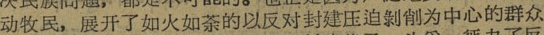动牧民，展开了如火如荼的以反对封建压迫剝削为中心的群众
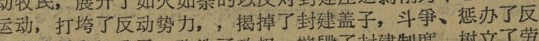运动，打垮了反动势力，，揭掉了封建盖子，斗爭、惩办了反
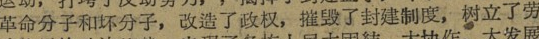革命分子和坏分子，改造了政权，摧毁了封建制度，树立了劳
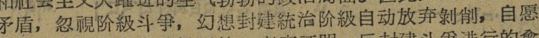矛盾，忽視阶級斗爭，幻想封建統治阶級自动放弃剝削，自愿
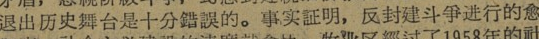退出历史舞台是十分錯誤的。事实証明，反封建斗爭进行的愈
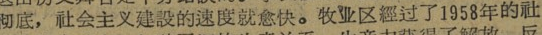彻底，社会主义建設的速度就愈快。牧业区經过了1958年的社
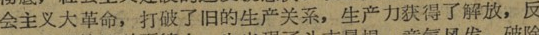会主义大革命，打破了旧的生产关系，生产力获得了解放，反
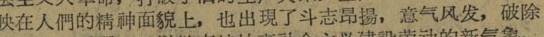映在人們的精神面貌上，也出現了斗志昂揚，意气风发，破除
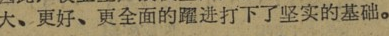大、更好、更全面的躍进打下了坚实的基础。
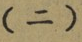（二）
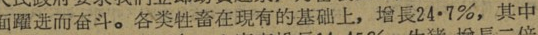面躍进而奋斗。各类牲畜在現有的基础上，增長24・7％，其中
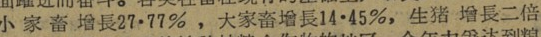小 家 畜 增長27・77％，大家畜增長14・45％，生猪 增長二倍
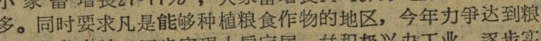多。同时要求凡是能够种植粮食作物的地区，今年力爭达到粮
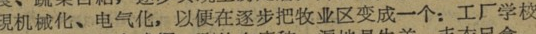現机械化、电气化，以便在逐步把牧业区变成一个：工厂学校
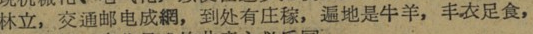林立，交通邮电成網，到处有庄稼，遍地是牛羊，丰衣足食，
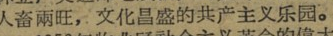人畜兩旺，文化昌盛的共产主义乐园。
